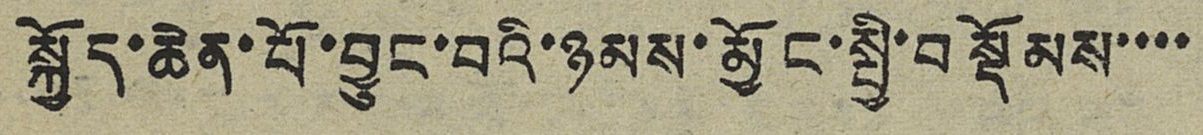སྐྱོད་ཆེན་པོ་བྱུང་བའི་ཉམས་མྱོང་སྤྱི་བསྡོམས་་་་
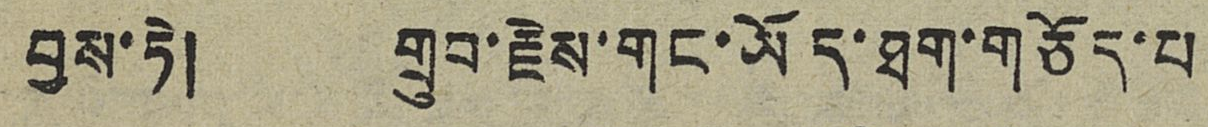བྱས་ཏེ། གྲུབ་རྗེས་གང་ཡོད་ཐག་གཅོད་པ
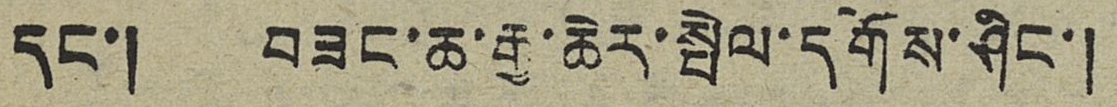དང་། བཟང་ཆ་རྒྱ་ཆེར་སྤེལ་དགོས་ཤིང་།
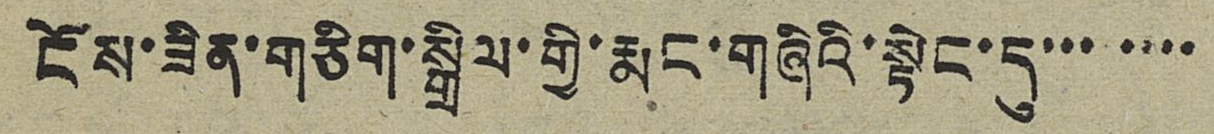ངོས་ཟིན་གཅིག་སྒྲིལ་གྱི་རྨང་གཞིའི་སྟེང་དུ་་་་་་་
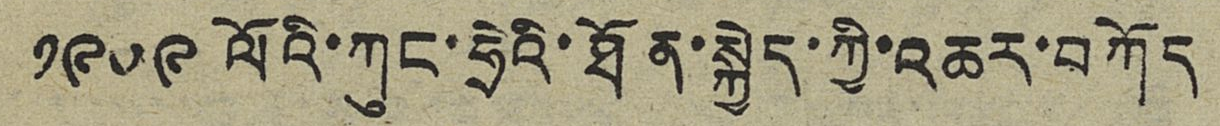༡༩༥༩ ལོའི་ཀུང་ཧྲེའི་ཐོན་སྐྱེད་ཀྱི་འཆར་བཀོད
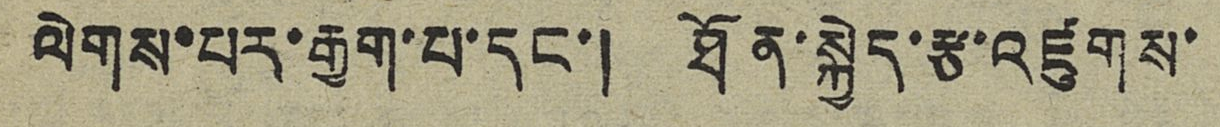ལེགས་པར་རྒྱག་པ་དང་། ཐོན་སྐྱེད་རྩ་འཛུགས་
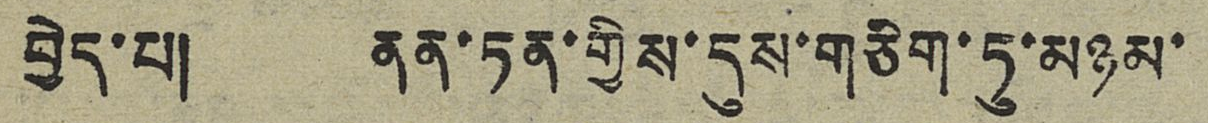བྱེད་པ། ནན་ཏན་གྱིས་དུས་གཅིག་ཏུ་མཉམ་
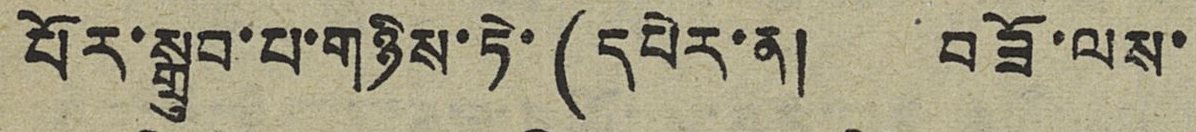པོར་སྒྲུབ་པ་གཉིས་ཏེ་(དཔེར་ན། བཟོ་ལས་
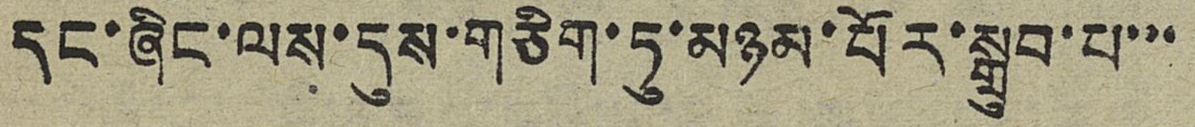དང་ཞིང་ལས་དུས་གཅིག་ཏུ་མཉམ་པོར་སྒྲུབ་པ་་་
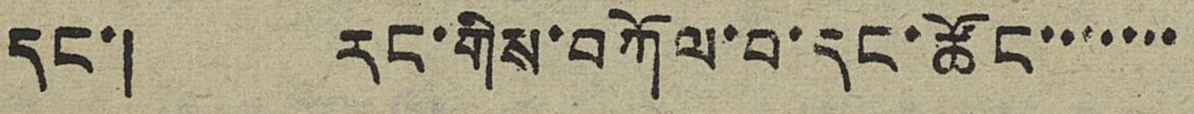དང་། རང་གིས་བཀོལ་བ་དང་ཚོང་་་་་་་
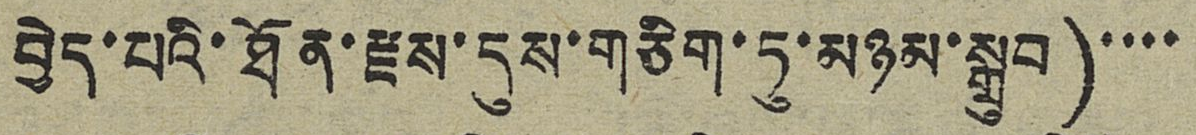བྱེད་པའི་ཐོན་རྫས་དུས་གཅིག་ཏུ་མཉམ་སྒྲུབ)་་་་
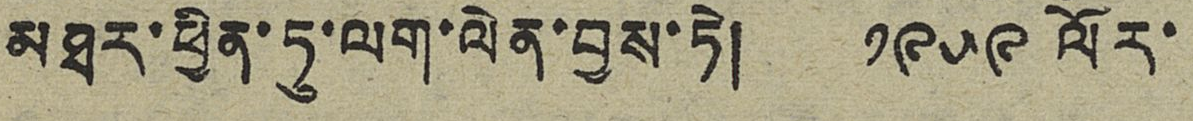མཐར་ཕྱིན་ཏུ་ལག་ལེན་བྱས་ཏེ། ༡༩༥༩ ལོར་
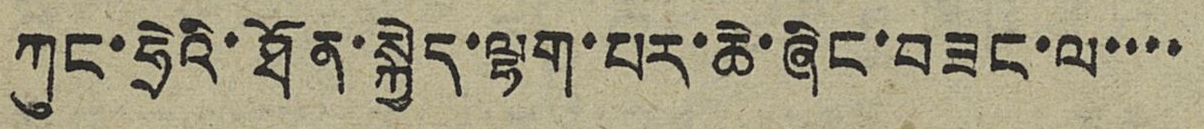ཀུང་ཧྲེའི་ཐོན་སྐྱེད་ལྷག་པར་ཆེ་ཞིང་བཟང་ལ་་་་
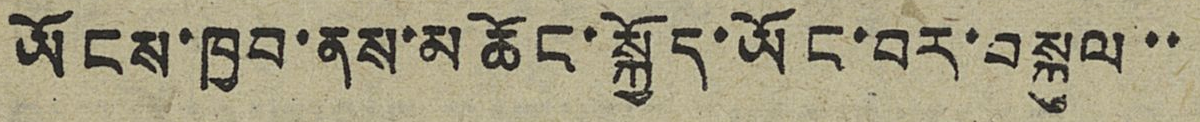ཡོངས་ཁྱབ་ནས་མཆོང་སྐྱེད་ཡོང་བར་བསྐུལ་་
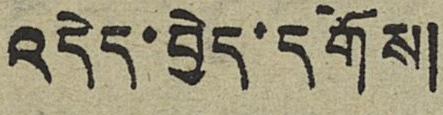འདེད་བྱེད་དགོས།
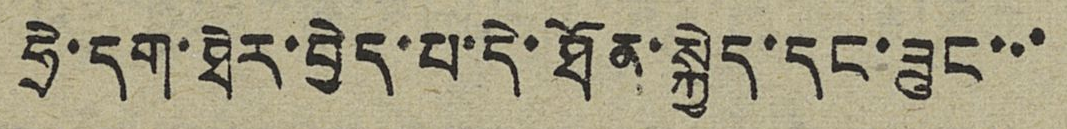ཧྲེ་དག་ཐེར་བྱེད་པ་དེ་ཐོན་སྐྱེད་དང་ཟུང་་་
